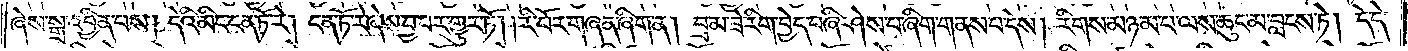ཞེས་སྒྲ་འབྱིན་པས། དེའི་མིང་ངན་ཏོ་རེ། ངན་ཏོ་རེ་ཞེས་བྱ་བར་གྱུར་ཏོ། །རི་བོར་གཞན་ཞིག་ན། བྲམ་ཟེ་རིག་བྱེད་བཞི་ཤེས་པ་ཞིག་གནས་པ་དེས། རིགས་མཉམ་པ་ལས་ཆུང་མ་བླངས་ཏེ། དེ་དེ་
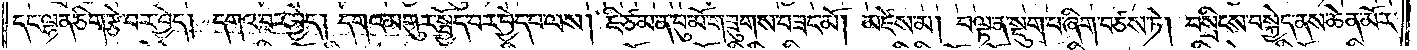དང་ལྷན་ཅིག་རྩེ་བར་བྱེད། དགའ་བར་བྱེད། དགའ་མགུར་སྤྱོད་པར་བྱེད་པ་ལས། ཇི་ཙམ་ན་བུ་མོ་གཟུགས་བཟང་མོ། མཛེས་མ། བལྟ་ན་སྡུག་པ་ཞིག་བཙས་ཏེ། བསྲིངས་བསྐྱེད་ནས་ཆེན་མོར་
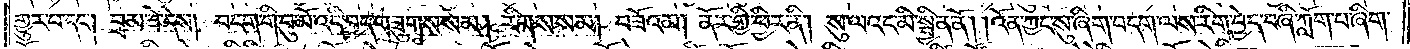གྱུར་པ་དང༌། བྲམ་ཟེ་དེས། བདག་གི་བུ་མོ་འདི་བྱད་གཟུགས་སམ། རིགས་སམ། བཟོའམ། ནོར་གྱི་ཕྱིར་ནི། སུ་ལའང་མི་སྦྱིན་ནོ། །འོན་ཀྱང་སུ་ཞིག་བདག་ལས་རིག་བྱེད་བཞི་ཀློག་པ་ཞིག་
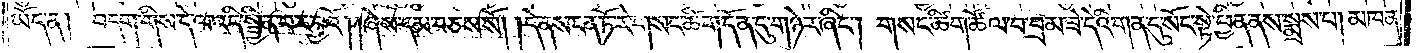ཡོད་ན། བདག་གིས་དེ་ལ་འདི་སྦྱིན་པར་བྱའོ། །ཞེས་དམ་བཅས་སོ། །དེ་ནས་ངན་ཏོ་རེ་གསང་ཚིག་དོན་དུ་གཉེར་ཞིང༌། གསང་ཚིག་ཚོལ་བ་བྲམ་ཟེ་དེའི་གན་དུ་སོང་སྟེ་ཕྱིན་ནས་སྨྲས་པ། མཁན་
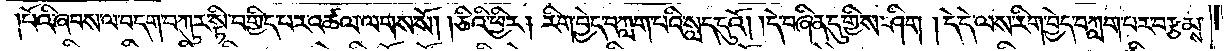པོའི་ཞབས་ལ་བདག་བཀུར་སྟི་བགྱིད་པར་འཚལ་ལགས་སོ། །ཅིའི་ཕྱིར། རིག་བྱེད་བཀླག་པའི་སླད་དུའོ། །དེ་བཞིན་དུ་གྱིས་ཤིག །དེ་དེ་ལས་རིག་བྱེད་བཀླག་པར་བརྩམས་
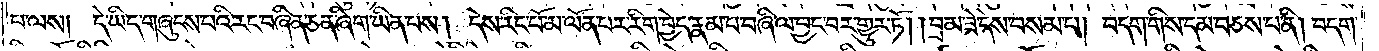པ་ལས། དེ་ཡིད་གཞུངས་པའི་རང་བཞིན་ཅན་ཞིག་ཡིན་པས། དེས་རིང་པོ་མ་ལོན་པར་རིག་བྱེད་རྣམ་པ་བཞི་ལ་བྱང་བར་གྱུར་ཏོ། །བྲམ་ཟེ་དེས་བསམ་པ། བདག་གིས་དམ་བཅས་པ་ནི། བདག་
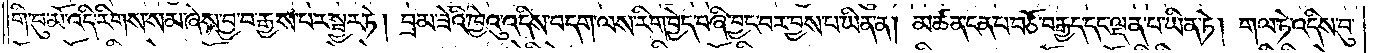གི་བུ་མོ་འདི་རིགས་སམ་ཞེས་བྱ་བ་རྒྱས་པར་སྦྱར་ཏེ། བྲམ་ཟེའི་ཁྱེའུ་འདིས་བདག་ལས་རིག་བྱེད་བཞི་བྱང་བར་བྱས་པ་ཡིན་ན། མཚན་ངན་པ་བཅོ་བརྒྱད་དང་ལྡན་པ་ཡིན་ཏེ། གལ་ཏེ་འདིས་བུ་
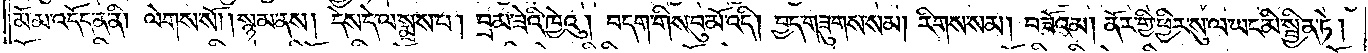མོ་མ་འདོད་ན་ནི། ལེགས་སོ། །སྙམ་ནས། དེས་དེ་ལ་སྨྲས་པ། བྲམ་ཟེའི་ཁྱེའུ། བདག་གིས་བུ་མོ་འདི། བྱད་གཟུགས་སམ། རིགས་སམ། བཟོའམ། ནོར་གྱི་ཕྱིར་སུ་ལ་ཡང་མི་སྦྱིན་ཏེ།
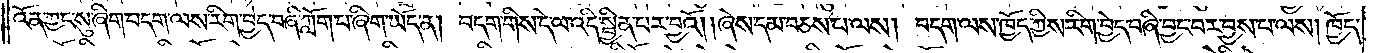འོན་ཀྱང་སུ་ཞིག་བདག་ལས་རིག་བྱེད་བཞི་ཀློག་པ་ཞིག་ཡོད་ན། བདག་གིས་དེ་ལ་འདི་སྦྱིན་པར་བྱའོ། །ཞེས་དམ་བཅས་པ་ལས། བདག་ལས་ཁྱོད་ཀྱིས་རིག་བྱེད་བཞི་བྱང་བར་བྱས་པ་ལས། ཁྱོད་
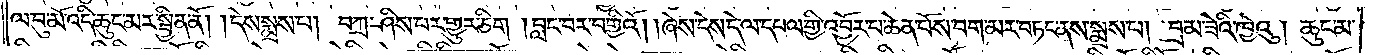ལ་བུ་མོ་འདི་ཆུང་མར་སྦྱིན་ནོ། །དེས་སྨྲས་པ། བཀྲ་ཤིས་པར་གྱུར་ཅིག །བླང་བར་བགྱིའོ། །ཞེས་དེས་དེ་ལ་དཔལ་གྱི་འབྱོར་བ་ཆེན་པོས་བག་མར་བཏང་ནས་སྨྲས་པ། བྲམ་ཟེའི་ཁྱེའུ། ཆུང་མ་
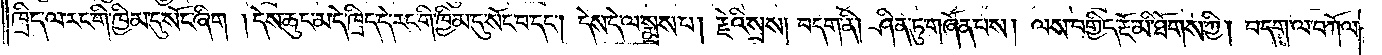ཁྲིད་ལ་རང་གི་ཁྱིམ་དུ་སོང་ཞིག །དེས་ཆུང་མ་དེ་ཁྲིད་དེ་རང་གི་ཁྱིམ་དུ་སོང་བ་དང༌། དེས་དེ་ལ་སྨྲས་པ། རྗེའི་སྲས། བདག་ནི། ཤིན་ཏུ་གཞོན་པས། ལས་བགྱིད་རྔོ་མི་ཐོགས་ཀྱི། བདག་ལ་བཀོལ་
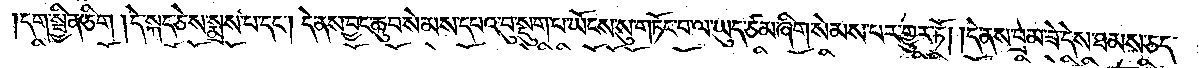དག་སྦྱིན་ཅིག །དེ་སྐད་ཅེས་སྨྲས་པ་དང༌། དེ་ནས་བྱང་ཆུབ་སེམས་དཔའ་བུ་སྡུག་པ་ཡོངས་སུ་གཏོང་བ་ལ་ཡུད་ཙམ་ཞིག་སེམས་པར་གྱུར་ཏོ། །དེ་ནས་བྲམ་ཟེ་དེས་ཐམས་ཅད་
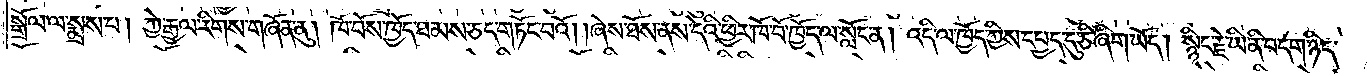སྒྲོལ་ལ་སྨྲས་པ། ཀྱེ་རྒྱལ་རིགས་གཞོན་ནུ། ཁོ་བོས་ཁྱོད་ཐམས་ཅད་གཏོང་བའོ། །ཞེས་ཐོས་ནས་དེའི་ཕྱིར་ཁོ་བོ་ཁྱོད་ལ་སློང་ན། འདི་ལ་ཁྱོད་ཀྱིས་དཔྱད་དུ་ཅི་ཞིག་ཡོད། སྙིང་རྗེ་ཡི་ནི་བདག་ཉིད་
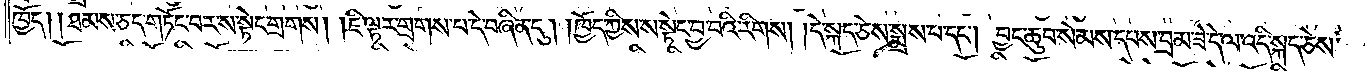ཁྱོད། །ཐམས་ཅད་གཏོང་བར་ས་སྟེང་གྲགས། །ཇི་ལྟར་གྲགས་པ་དེ་བཞིན་དུ། །ཁྱོད་ཀྱིས་ས་སྟེང་བྱ་བའི་རིགས། །དེ་སྐད་ཅེས་སྨྲས་པ་དང༌། བྱང་ཆུབ་སེམས་དཔས་བྲམ་ཟེ་དེ་ལ་འདི་སྐད་ཅེས་
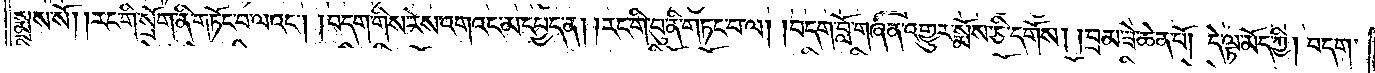སྨྲས་སོ། །རང་གི་སྲོག་ནི་གཏོང་བ་ལའང༌། བདག་གིས་རེས་འགའང་མ་དཔྱད་ན། །རང་གི་བུ་ནི་གཏང་བ་ལ། །བདག་བློ་གཞན་འགྱུར་སྨོས་ཅི་དགོས། །བྲམ་ཟེ་ཆེན་པོ། དེ་ལྟ་མོད་ཀྱི། བདག་
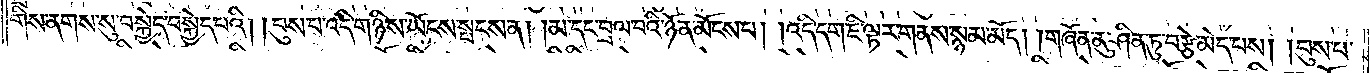གིས་ནགས་སུ་བསྐྱེད་བསྐྱེད་པའི། །བུས་པ་འདི་གཉིས་ཡོངས་སྤངས་ན། །མ་དང་བྲལ་བའི་ཉོན་མོངས་པ། །འདི་དག་ཇི་ལྟར་གནས་སྙམ་མོད། །གཞོན་ནུ་ཤིན་ཏུ་བརྩེ་མེད་པས། །བུས་པ་
